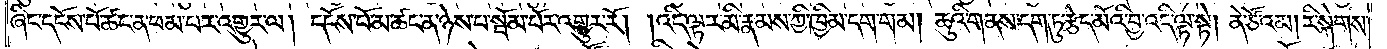ཞིང་དངོས་པོ་ཚང་ན་ཕམ་པར་འགྱུར་ལ། དངོས་པོ་མ་ཚང་ན་ཉེས་པ་སྦོམ་པོར་འགྱུར་རོ། །འདི་ལྟར་མི་རྣམས་ཀྱི་ཁྱིམ་དག་གམ། ཆུའི་གནས་དག་ཏུ་རྩེད་མོའི་བྱ་འདི་ལྟ་སྟེ། ནེ་ཙོ་འམ། རི་སྐེགས་
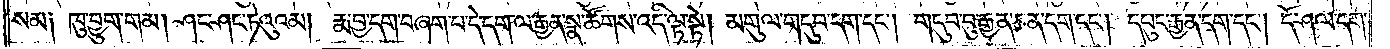སམ༑ ཁུ་བྱུག་གམ། ཤང་ཤང་ཏེའུའམ། རྨ་བྱ་དག་བཞག་པ་དེ་དག་ལ་རྒྱན་སྣ་ཚོགས་འདི་ལྟ་སྟེ། མགུལ་གདུབ་དག་དང༌། གདུབ་བུ་རྒྱན་ཅན་དག་དང༌། དཔུང་རྒྱན་དག་དང༌། དོ་ཤལ་དག་
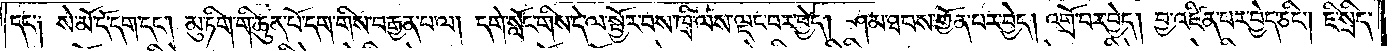དང་༑ སེ་མོ་དོ་དག་དང༌། མུ་ཏིག་གི་ཆུན་པོ་དག་གིས་བརྒྱན་པ་ལ། དགེ་སློང་གིས་དེ་ལ་སྦྱོར་བས་ཁྲི་ལས་ལྡང་བར་བྱེད། ཤམ་ཐབས་གྱོན་པར་བྱེད། འགྲོ་བར་བྱེད། བྱ་འཛིན་པར་བྱེད་ཅིང༌། ཇི་སྲིད་
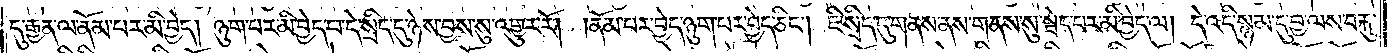དུ་རྒྱན་ལ་ནོམ་པར་མི་བྱེད། ཉུག་པར་མི་བྱེད་པ་དེ་སྲིད་དུ་ཉེས་བྱས་སུ་འགྱུར་རོ། །ནོམ་པར་བྱེད་ཉུག་པར་བྱེད་ཅིང༌། ཇི་སྲིད་དུ་གནས་ནས་གནས་སུ་སྦེད་པར་མི་བྱེད་ལ། དེ་འདི་སྙམ་དུ་བྱས་ལས་བརྐུ་
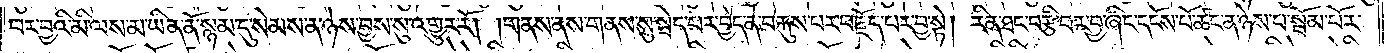བར་བྱའི་མི་ལས་མ་ཡིན་ནོ་སྙམ་དུ་སེམས་ན་ཉེས་བྱས་སུ་འགྱུར་རོ། །གནས་ནས་གནས་སུ་སྦེད་པར་བྱེད་ན་བརྐུས་པར་བརྗོད་པར་བྱ་སྟེ། རིན་ཐང་བརྩི་བར་བྱ་ཞིང་དངོས་པོ་ཚང་ན་ཉེས་པ་སྦོམ་པོར་
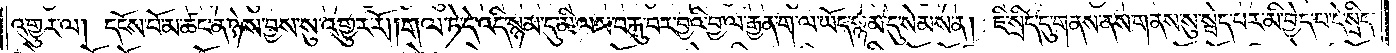འགྱུར་ལ། དངོས་པོ་མ་ཚང་ན་ཉེས་བྱས་སུ་འགྱུར་རོ། །གལ་ཏེ་དེ་འདི་སྙམ་དུ་མི་ལས་བརྐུ་བར་བྱའི་བྱ་ལ་རྒྱན་ག་ལ་ཡོད་སྙམ་དུ་སེམས་ན། ཇི་སྲིད་དུ་གནས་ནས་གནས་སུ་སྦེད་པར་མི་བྱེད་པ་དེ་སྲིད་
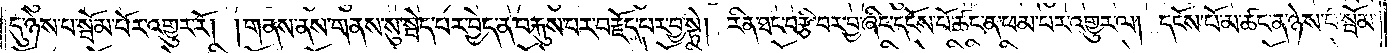དུ་ཉེས་པ་སྦོམ་པོར་འགྱུར་རོ། །གནས་ནས་གནས་སུ་སྦེད་པར་བྱེད་ན་བརྐུས་པར་བརྗོད་པར་བྱ་སྟེ། རིན་ཐང་བརྩི་བར་བྱ་ཞིང་དངོས་པོ་ཚང་ན་ཕམ་པར་འགྱུར་ལ། དངོས་པོ་མ་ཚང་ན་ཉེས་པ་སྦོམ་
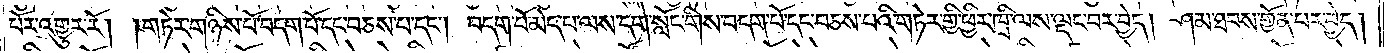པོར་འགྱུར་རོ། །གཏེར་གཉིས་པོ་བདག་པོ་དང་བཅས་པ་དང༌། བདག་པོ་མེད་པ་ལས་དགེ་སློང་གིས་བདག་པོ་དང་བཅས་པའི་གཏེར་གྱི་ཕྱིར་ཁྲི་ལས་ལྡང་བར་བྱེད། ཤམ་ཐབས་གྱོན་པར་བྱེད།
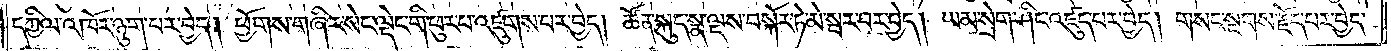དཀྱིལ་འཁོར་ཉུག་པར་བྱེད། ཕྱོགས་གཞིར་སེང་ལྡེང་གི་ཕུར་པ་འཛུགས་པར་བྱེད། ཚོན་སྐུད་སྣ་ལྔས་བསྐོར་ཏེ་མེ་སྦར་བར་བྱེད། ཡམ་སྲེག་ཤིང་འཛུད་པར་བྱེད། གསང་སྔགས་རྗོད་པར་བྱེད་
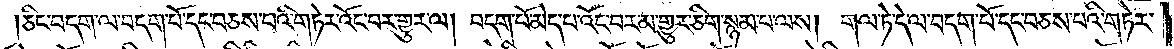ཅིང་བདག་ལ་བདག་པོ་དང་བཅས་པའི་གཏེར་འོང་བར་གྱུར་ལ། བདག་པོ་མེད་པ་འོང་བར་མ་གྱུར་ཅིག་སྙམ་པ་ལས། གལ་ཏེ་དེ་ལ་བདག་པོ་དང་བཅས་པའི་གཏེར་
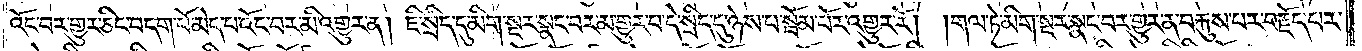འོང་བར་གྱུར་ཅིང་བདག་པོ་མེད་པ་འོང་བར་མི་འགྱུར་ན། ཇི་སྲིད་དུ་མིག་སྔར་སྣང་བར་མ་གྱུར་པ་དེ་སྲིད་དུ་ཉེས་པ་སྦོམ་པོར་འགྱུར་རོ། །གལ་ཏེ་མིག་སྔར་སྣང་བར་གྱུར་ན་བརྐུས་པར་བརྗོད་པར་
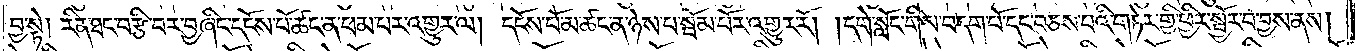བྱ་སྟེ། རིན་ཐང་བརྩི་བར་བྱ་ཞིང་དངོས་པོ་ཚང་ན་ཕམ་པར་འགྱུར་ལ། དངོས་པོ་མ་ཚང་ན་ཉེས་པ་སྦོམ་པོར་འགྱུར་རོ། །དགེ་སློང་གིས་བདག་པོ་དང་བཅས་པའི་གཏེར་གྱི་ཕྱིར་སྦྱོར་བ་བྱས་ནས།
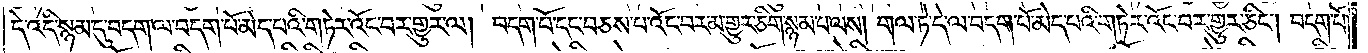དེ་འདི་སྙམ་དུ་བདག་ལ་བདག་པོ་མེད་པའི་གཏེར་འོང་བར་གྱུར་ལ། བདག་པོ་དང་བཅས་པ་འོང་བར་མ་གྱུར་ཅིག་སྙམ་པ་ལས། གལ་ཏེ་དེ་ལ་བདག་པོ་མེད་པའི་གཏེར་འོང་བར་གྱུར་ཅིང༌། བདག་པོ་
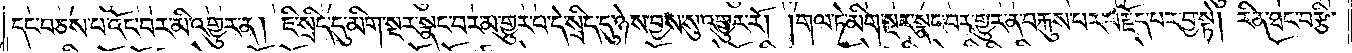དང་བཅས་པ་འོང་བར་མི་འགྱུར་ན། ཇི་སྲིད་དུ་མིག་སྔར་སྣང་བར་མ་གྱུར་པ་དེ་སྲིད་དུ་ཉེས་བྱས་སུ་འགྱུར་རོ། །གལ་ཏེ་མིག་སྔར་སྣང་བར་གྱུར་ན་བརྐུས་པར་བརྗོད་པར་བྱ་སྟེ། རིན་ཐང་བརྩི་
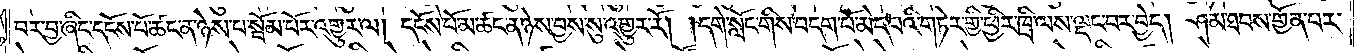བར་བྱ་ཞིང་དངོས་པོ་ཚང་ན་ཉེས་པ་སྦོམ་པོར་འགྱུར་ལ། དངོས་པོ་མ་ཚང་ན་ཉེས་བྱས་སུ་འགྱུར་རོ། །དགེ་སློང་གིས་བདག་པོ་མེད་པའི་གཏེར་གྱི་ཕྱིར་ཁྲི་ལས་ལྡང་བར་བྱེད། ཤམ་ཐབས་གྱོན་པར་
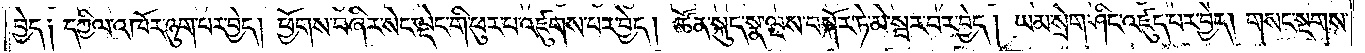བྱེད༑ དཀྱིལ་འཁོར་ཉུག་པར་བྱེད། ཕྱོགས་བཞིར་སེང་ལྡེང་གི་ཕུར་པ་འཛུགས་པར་བྱེད། ཚོན་སྐུད་སྣ་ལྔས་བསྐོར་ཏེ་མེ་སྦར་བར་བྱེད། ཡམ་སྲེག་ཤིང་འཛུད་པར་བྱེད། གསང་སྔགས་
